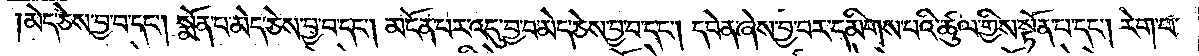མེད་ཅེས་བྱ་བ་དང༌། སྨོན་པ་མེད་ཅེས་བྱ་བ་དང༌། མངོན་པར་འདུ་བྱ་བ་མེད་ཅེས་བྱ་བ་དང༌། དབེན་ཞེས་བྱ་བར་དམིགས་པའི་ཚུལ་གྱིས་སྟོན་པ་དང༌། རེག་པ་
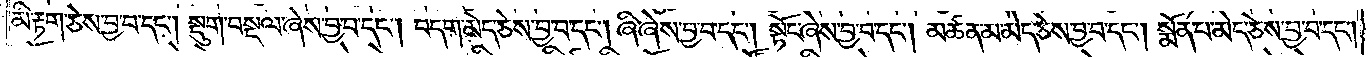མི་རྟག་ཅེས་བྱ་བ་དང༌། སྡུག་བསྔལ་ཞེས་བྱ་བ་དང༌། བདག་མེད་ཅེས་བྱ་བ་དང༌། ཞི་ཞེས་བྱ་བ་དང༌། སྟོང་ཞེས་བྱ་བ་དང༌། མཚན་མ་མེད་ཅེས་བྱ་བ་དང༌། སྨོན་པ་མེད་ཅེས་བྱ་བ་དང༌།
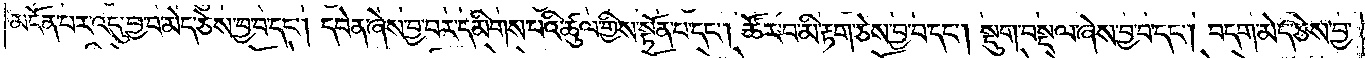མངོན་པར་འདུ་བྱ་བ་མེད་ཅེས་བྱ་བ་དང༌། དབེན་ཞེས་བྱ་བར་དམིགས་པའི་ཚུལ་གྱིས་སྟོན་པ་དང༌། ཚོར་བ་མི་རྟག་ཅེས་བྱ་བ་དང༌། སྡུག་བསྔལ་ཞེས་བྱ་བ་དང༌། བདག་མེད་ཅེས་བྱ་
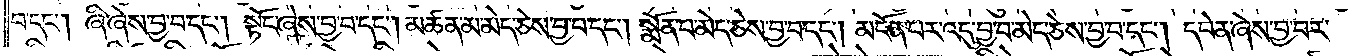བ་དང༌། ཞི་ཞེས་བྱ་བ་དང༌། སྟོང་ཞེས་བྱ་བ་དང༌། མཚན་མ་མེད་ཅེས་བྱ་བ་དང༌། སྨོན་པ་མེད་ཅེས་བྱ་བ་དང༌། མངོན་པར་འདུ་བྱ་བ་མེད་ཅེས་བྱ་བ་དང༌། དབེན་ཞེས་བྱ་བར་
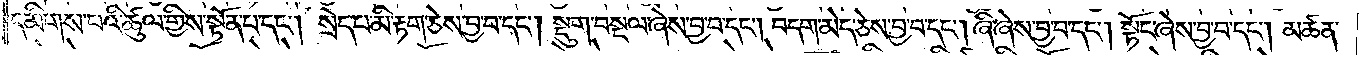དམིགས་པའི་ཚུལ་གྱིས་སྟོན་པ་དང༌། སྲེད་པ་མི་རྟག་ཅེས་བྱ་བ་དང༌། སྡུག་བསྔལ་ཞེས་བྱ་བ་དང༌། བདག་མེད་ཅེས་བྱ་བ་དང༌། ཞི་ཞེས་བྱ་བ་དང༌། སྟོང་ཞེས་བྱ་བ་དང༌། མཚན་
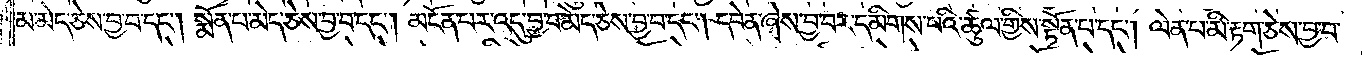མ་མེད་ཅེས་བྱ་བ་དང༌། སྨོན་པ་མེད་ཅེས་བྱ་བ་དང༌། མངོན་པར་འདུ་བྱ་བ་མེད་ཅེས་བྱ་བ་དང༌། དབེན་ཞེས་བྱ་བར་དམིགས་པའི་ཚུལ་གྱིས་སྟོན་པ་དང༌། ལེན་པ་མི་རྟག་ཅེས་བྱ་བ་
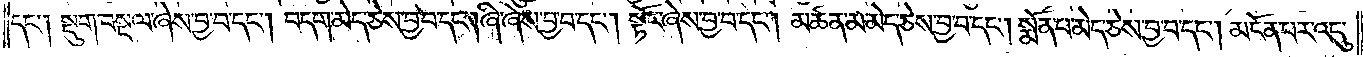དང༌། སྡུག་བསྔལ་ཞེས་བྱ་བ་དང༌། བདག་མེད་ཅེས་བྱ་བ་དང༌།ཞི་ཞེས་བྱ་བ་དང༌། སྟོང་ཞེས་བྱ་བ་དང༌། མཚན་མ་མེད་ཅེས་བྱ་བ་དང༌། སྨོན་པ་མེད་ཅེས་བྱ་བ་དང༌། མངོན་པར་འདུ་
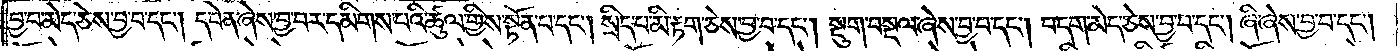བྱ་བ་མེད་ཅེས་བྱ་བ་དང༌། དབེན་ཞེས་བྱ་བར་དམིགས་པའི་ཚུལ་གྱིས་སྟོན་པ་དང༌། སྲིད་པ་མི་རྟག་ཅེས་བྱ་བ་དང༌། སྡུག་བསྔལ་ཞེས་བྱ་བ་དང༌། བདག་མེད་ཅེས་བྱ་བ་དང༌། ཞི་ཞེས་བྱ་བ་དང༌།
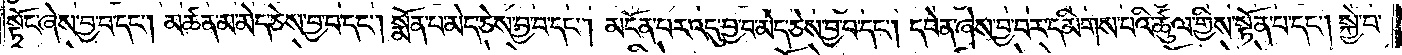སྟོང་ཞེས་བྱ་བ་དང༌། མཚན་མ་མེད་ཅེས་བྱ་བ་དང༌། སྨོན་པ་མེད་ཅེས་བྱ་བ་དང༌། མངོན་པར་འདུ་བྱ་བ་མེད་ཅེས་བྱ་བ་དང༌། དབེན་ཞེས་བྱ་བར་དམིགས་པའི་ཚུལ་གྱིས་སྟོན་པ་དང༌། སྐྱེ་བ་
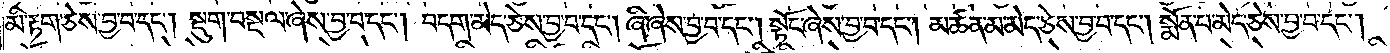མི་རྟག་ཅེས་བྱ་བ་དང༌། སྡུག་བསྔལ་ཞེས་བྱ་བ་དང༌། བདག་མེད་ཅེས་བྱ་བ་དང༌། ཞི་ཞེས་བྱ་བ་དང༌། སྟོང་ཞེས་བྱ་བ་དང༌། མཚན་མ་མེད་ཅེས་བྱ་བ་དང༌། སྨོན་པ་མེད་ཅེས་བྱ་བ་དང༌།
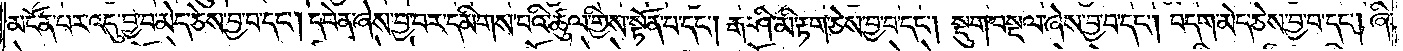མངོན་པར་འདུ་བྱ་བ་མེད་ཅེས་བྱ་བ་དང༌། དབེན་ཞེས་བྱ་བར་དམིགས་པའི་ཚུལ་གྱིས་སྟོན་པ་དང༌། རྒ་ཤི་མི་རྟག་ཅེས་བྱ་བ་དང༌། སྡུག་བསྔལ་ཞེས་བྱ་བ་དང༌། བདག་མེད་ཅེས་བྱ་བ་དང༌། ཞི་
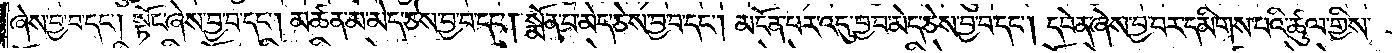ཞེས་བྱ་བ་དང༌། སྟོང་ཞེས་བྱ་བ་དང༌། མཚན་མ་མེད་ཅེས་བྱ་བ་དང༌། སྨོན་པ་མེད་ཅེས་བྱ་བ་དང༌། མངོན་པར་འདུ་བྱ་བ་མེད་ཅེས་བྱ་བ་དང༌། དབེན་ཞེས་བྱ་བར་དམིགས་པའི་ཚུལ་གྱིས་
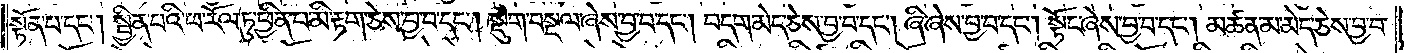སྟོན་པ་དང༌། སྦྱིན་པའི་ཕ་རོལ་ཏུ་ཕྱིན་པ་མི་རྟག་ཅེས་བྱ་བ་དང༌། སྡུག་བསྔལ་ཞེས་བྱ་བ་དང༌། བདག་མེད་ཅེས་བྱ་བ་དང༌། ཞི་ཞེས་བྱ་བ་དང༌། སྟོང་ཞེས་བྱ་བ་དང༌། མཚན་མ་མེད་ཅེས་བྱ་བ་
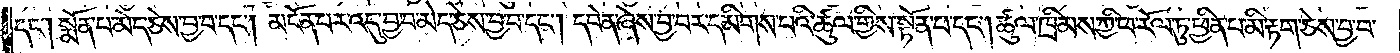དང༌། སྨོན་པ་མེད་ཅེས་བྱ་བ་དང༌། མངོན་པར་འདུ་བྱ་བ་མེད་ཅེས་བྱ་བ་དང༌། དབེན་ཞེས་བྱ་བར་དམིགས་པའི་ཚུལ་གྱིས་སྟོན་པ་དང༌། ཚུལ་ཁྲིམས་ཀྱི་ཕ་རོལ་ཏུ་ཕྱིན་པ་མི་རྟག་ཅེས་བྱ་བ་
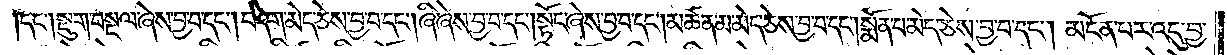དང༌། སྡུག་བསྔལ་ཞེས་བྱ་བ་དང༌། བདག་མེད་ཅེས་བྱ་བ་དང༌། ཞི་ཞེས་བྱ་བ་དང༌། སྟོང་ཞེས་བྱ་བ་དང༌། མཚན་མ་མེད་ཅེས་བྱ་བ་དང༌། སྨོན་པ་མེད་ཅེས་བྱ་བ་དང༌། མངོན་པར་འདུ་བྱ་
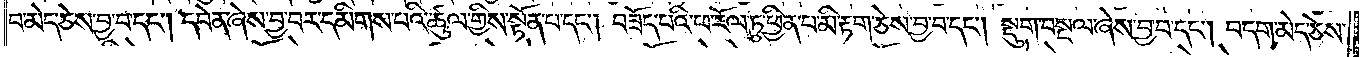བ་མེད་ཅེས་བྱ་བ་དང༌། དབེན་ཞེས་བྱ་བར་དམིགས་པའི་ཚུལ་གྱིས་སྟོན་པ་དང༌། བཟོད་པའི་ཕ་རོལ་ཏུ་ཕྱིན་པ་མི་རྟག་ཅེས་བྱ་བ་དང༌། སྡུག་བསྔལ་ཞེས་བྱ་བ་དང༌། བདག་མེད་ཅེས་
